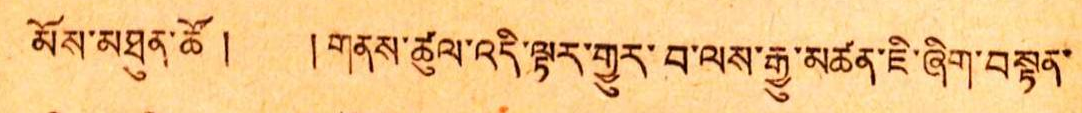མོས་མཐུན་ཚོ ། །གནས་ཚུལ་འདི་ལྟར་གྱུར་པ་ལས་རྒྱུ་མཚན་ཇི་ཞིག་བསྟན་
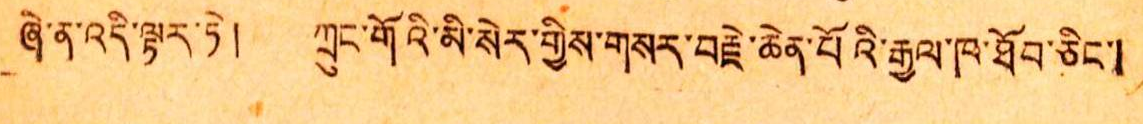ཞེ་ན་འདི་ལྟར་ཏེ། ཀྲུང་གོའི་མི་སེར་གྱིས་གསར་བརྗེ་ཆེན་པོའི་རྒྱལ་ཁ་ཐོབ་ཅིང་།
